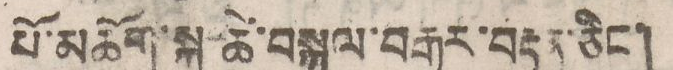པོ་མཆོག་སྐུ་ཚེ་བསྐལ་བརྒྱར་བརྟན་ཅིང་།
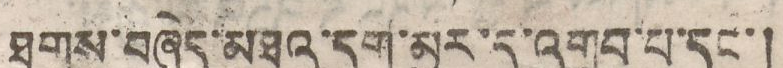ཐུགས་བཞེད་མཐའ་དག་མྱུར་དུ་འགྲུབ་པ་དང་།
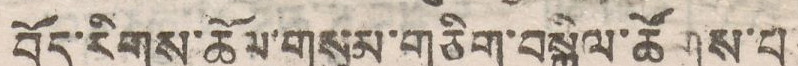བོད་རིགས་ཆོལ་གསུམ་གཅིག་བསྒྲིལ་ཚོགས་པ
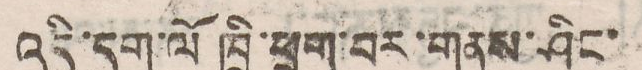འདི་དག་ལོ ཁྲི་ཕྲག་བར་གནས་ཤིང་
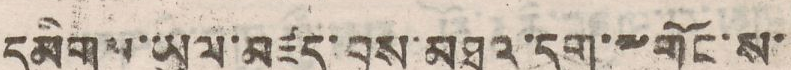དམིགས་ཡུལ་མཛད་བྱུས་མཐའ་དག་༸གོང་ས་
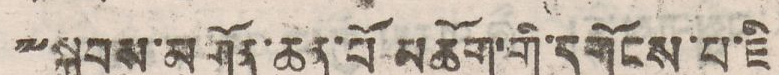༸སྐྱབས་མགོན་ཆེན་པོ་མཆོག་གི་དགོངས་པ་ཇི
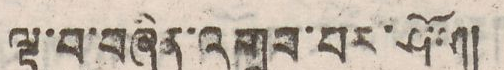ལྟ་བ་བཞིན་འགྲུབ་པར་ཤོག།
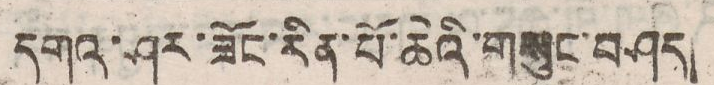དགའ་ཤར་ཟོང་རིན་པོ་ཆེའི་གསུང་བཤད།
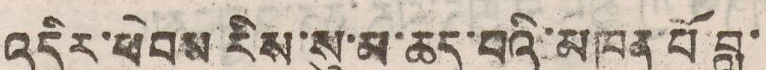འདིར་ཕེབས རིས་སུ་མ་ཆད་པའི་མཁན་པོ བླ་
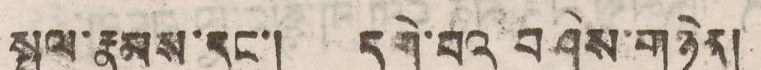སྤྲུལ་རྣམས་དང་། དགེ་བའ བཤེས་གཉེན།
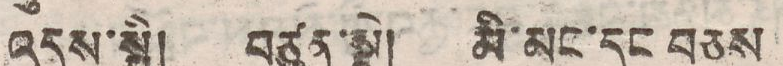འདུས་སྤྱི། བཙུན་སྡེ། མི་མང་དང བཅས
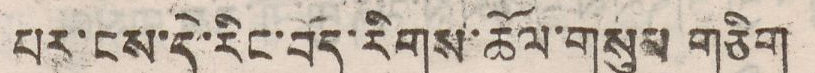པར་ངས་དེ་རིང་བོད་རིགས་ཆོལ་གསུམ གཅིག
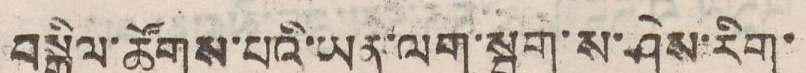བསྒྲིལ་ཚོགས་པའི་ཡན་ལག་སྦག་ས་ཤེས་རིག་
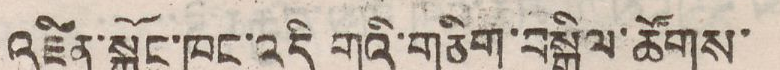འཛིན་སྐྱོང་ཁང་འདི གའི་གཅིག་བསྒྲིལ་ཚོགས་
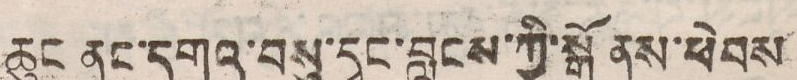ཆུང ནང་དགའ་བསུ་དྭང་བླངས་ཀྱི་སྒོ་ནས་ཕེབས
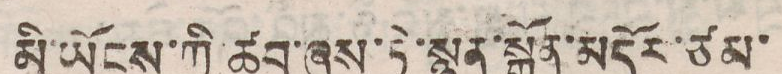མི་ཡོངས་ཀྱི་ཚབ་ཞུས་ཏེ་སྙན་སྒྲོན་མདོར་ཙམ་
